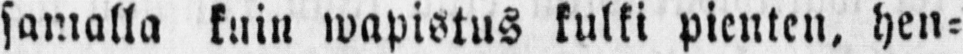samalla kuin wapistus kulki pienten, hen-
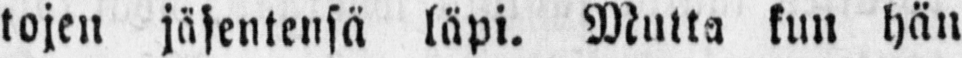tojen jäsentensä läpi. Mutta kun hän
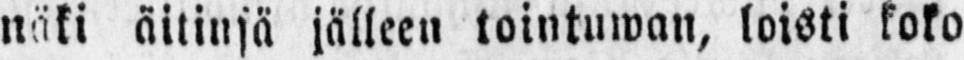näki äitinsä jälleen tointuwan, loisti koko
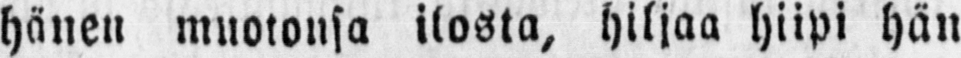hänen muotonsa ilosta, hiljaa hiipi hän
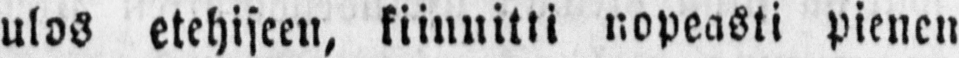ulos etehiseen, kiinnitti nopeasti pienen
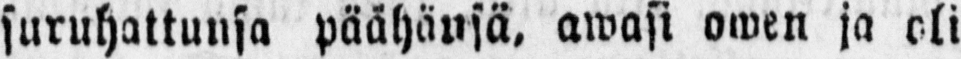suruhattunsa päähänsä, awasi owen ja oli
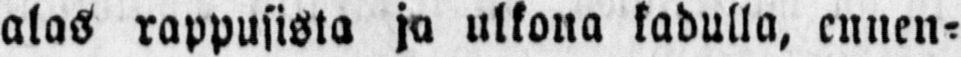alas rappusista ja ulkona kadulla, ennen-
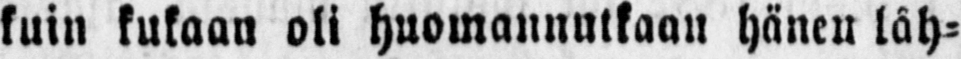kuin kukaan oli huomannutkaan hänen läh-
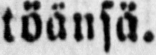töänsä.
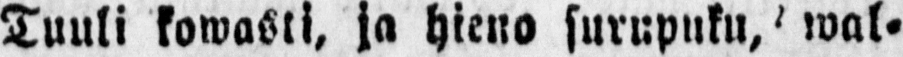Tuuli kowasti, ja hieno surupuku, wal-
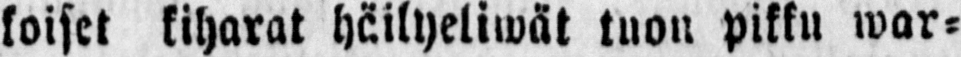koiset kiharat häilyeliwät tuon pikku war-
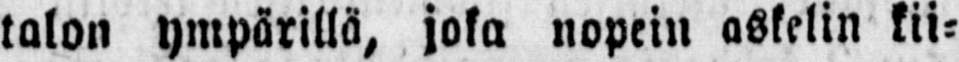talon ympärillä, joka nopein astelin kii-
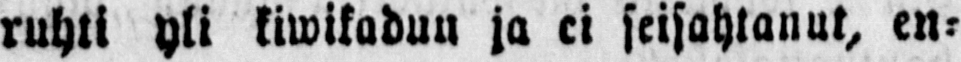ruhti yli kiwikadun ja ei seisahtanut, en-
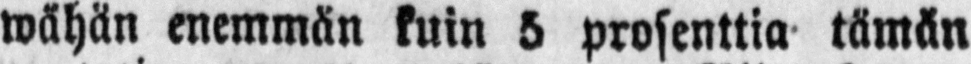wähän enemmän kuin 5 prosenttia tämän
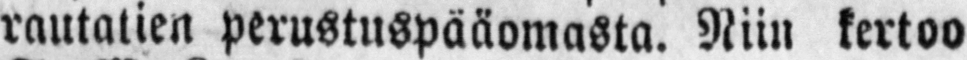rautatien perustuspääomasta. Niin kertoo
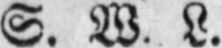S. W. L.
